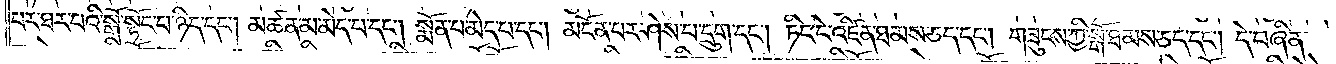པར་ཐར་པའི་སྒོ་སྟོང་པ་ཉིད་དང༌། མཚན་མ་མེད་པ་དང༌། སྨོན་པ་མེད་པ་དང༌། མངོན་པར་ཤེས་པ་དྲུག་དང༌། ཏིང་ངེ་འཛིན་ཐམས་ཅད་དང༌། གཟུངས་ཀྱི་སྒོ་ཐམས་ཅད་དང༌། དེ་བཞིན་
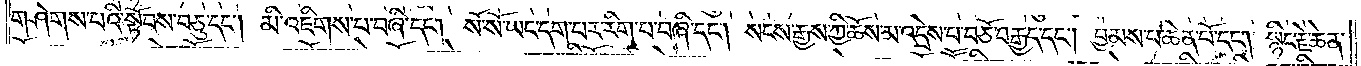གཤེགས་པའི་སྟོབས་བཅུ་དང༌། མི་འཇིགས་པ་བཞི་དང༌། སོ་སོ་ཡང་དག་པར་རིག་པ་བཞི་དང༌། སངས་རྒྱས་ཀྱི་ཆོས་མ་འདྲེས་པ་བཅོ་བརྒྱད་དང༌། བྱམས་པ་ཆེན་པོ་དང༌། སྙིང་རྗེ་ཆེན་
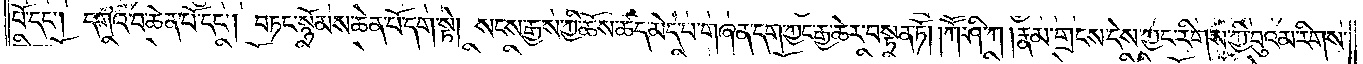པོ་དང༌། དགའ་བ་ཆེན་པོ་དང༌། བཏང་སྙོམས་ཆེན་པོ་དག་སྟེ། སངས་རྒྱས་ཀྱི་ཆོས་ཚད་མེད་པ་གཞན་དག་ཀྱང་རྒྱ་ཆེར་བསྟན་ཏོ། །ཀཽ་ཤི་ཀ །རྣམ་གྲངས་དེས་ཀྱང་རིགས་ཀྱི་བུའམ་རིགས་
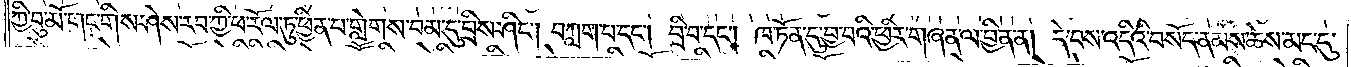ཀྱི་བུ་མོ་གང་གིས་ཤེས་རབ་ཀྱི་ཕ་རོལ་ཏུ་ཕྱིན་པ་གླེགས་བམ་དུ་བྲིས་ཤིང༌། བཀླག་པ་དང༌། བྲི་བ་དང༌། ཁ་ཏོན་དུ་བྱ་བའི་ཕྱིར་གཞན་ལ་བྱིན་ན། དེ་བས་འདིའི་བསོད་ནམས་ཆེས་མང་དུ་
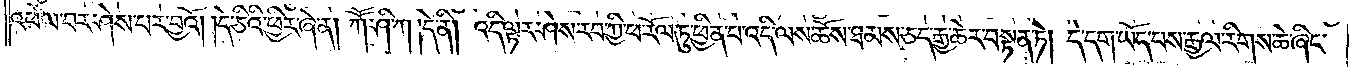འཕེལ་བར་ཤེས་པར་བྱའོ། །དེ་ཅིའི་ཕྱིར་ཞེ་ན། ཀཽ་ཤ་ཀ །དེ་ནི། འདི་ལྟར་ཤེས་རབ་ཀྱི་ཕ་རོལ་ཏུ་ཕྱིན་པ་འདི་ལས་ཆོས་ཐམས་ཅད་རྒྱ་ཆེར་བསྟན་ཏེ། དེ་དག་ཡོད་པས་རྒྱལ་རིགས་ཆེ་ཞིང་
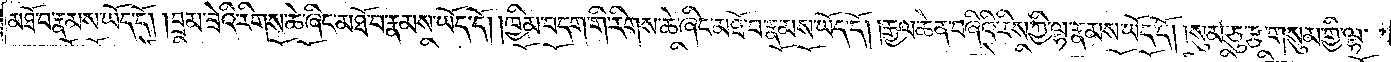མཐོ་བ་རྣམས་ཡོད་དོ། །བྲམ་ཟེའི་རིགས་ཆེ་ཞིང་མཐོ་བ་རྣམས་ཡོད་དོ། །ཁྱིམ་བདག་གི་རིགས་ཆེ་ཞིང་མཐོ་བ་རྣམས་ཡོད་དོ། །རྒྱལ་ཆེན་བཞིའི་རིས་ཀྱི་ལྷ་རྣམས་ཡོད་དོ། །སུམ་ཅུ་རྩ་གསུམ་གྱི་ལྷ་
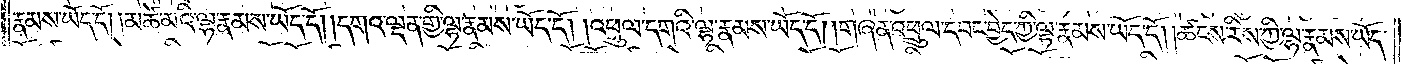རྣམས་ཡོད་དོ། །མཚེ་མའི་ལྷ་རྣམས་ཡོད་དོ། །དགའ་ལྡན་གྱི་ལྷ་རྣམས་ཡོད་དོ། །འཕྲུལ་དགའི་ལྷ་རྣམས་ཡོད་དོ། །གཞན་འཕྲུལ་དབང་བྱེད་ཀྱི་ལྷ་རྣམས་ཡོད་དོ། །ཚངས་རིས་ཀྱི་ལྷ་རྣམས་ཡོད་
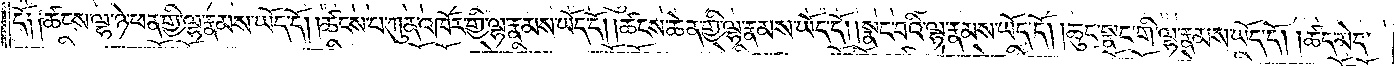དོ༑ ༑ཚངས་ལྷ་ཉེ་ཕན་གྱི་ལྷ་རྣམས་ཡོད་དོ། །ཚངས་པ་ཀུན་འཁོར་གྱི་ལྷ་རྣམས་ཡོད་དོ། །ཚངས་ཆེན་གྱི་ལྷ་རྣམས་ཡོད་དོ། །སྣང་བའི་ལྷ་རྣམས་ཡོད་དོ། །ཆུང་སྣང་གི་ལྷ་རྣམས་ཡོད་དོ། །ཚད་མེད་
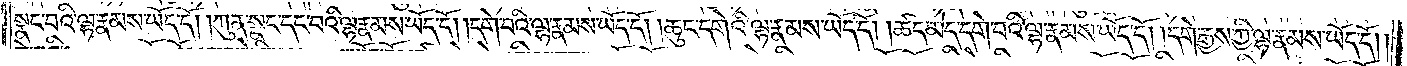སྣང་བའི་ལྷ་རྣམས་ཡོད་དོ། །ཀུན་སྣང་དང་བའི་ལྷ་རྣམས་ཡོད་དོ། །དགེ་བའི་ལྷ་རྣམས་ཡོད་དོ། །ཆུང་དགེའི་ལྷ་རྣམས་ཡོད་དོ། །ཚད་མེད་དགེ་བའི་ལྷ་རྣམས་ཡོད་དོ། །དགེ་རྒྱས་ཀྱི་ལྷ་རྣམས་ཡོད་དོ། །
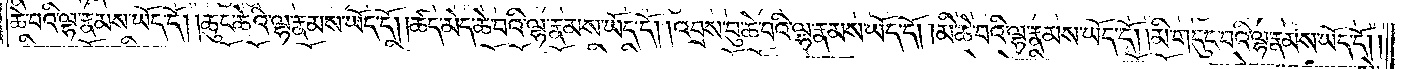ཆེ་བའི་ལྷ་རྣམས་ཡོད་དོ། །ཆུང་ཆེའི་ལྷ་རྣམས་ཡོད་དོ། །ཚད་མེད་ཆེ་བའི་ལྷ་རྣམས་ཡོད་དོ། །འབྲས་བུ་ཆེ་བའི་ལྷ་རྣམས་ཡོད་དོ། །མི་ཆེ་བའི་ལྷ་རྣམས་ཡོད་དོ། །མི་གདུང་བའི་ལྷ་རྣམས་ཡོད་དོ། །
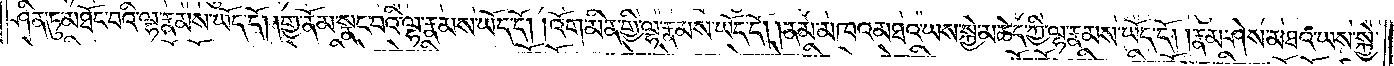ཤིན་ཏུ་མཐོང་བའི་ལྷ་རྣམས་ཡོད་དོ། །གྱ་ནོམ་སྣང་བའི་ལྷ་རྣམས་ཡོད་དོ། །འོག་མིན་གྱི་ལྷ་རྣམས་ཡོད་དོ། །ནམ་མཁའ་མཐའ་ཡས་སྐྱེ་མཆེད་ཀྱི་ལྷ་རྣམས་ཡོད་དོ། །རྣམ་ཤེས་མཐའ་ཡས་སྐྱེ་
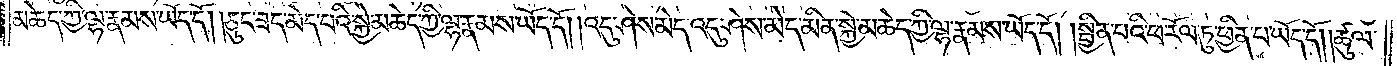མཆེད་ཀྱི་ལྷ་རྣམས་ཡོད་དོ། །ཅུང་ཟད་མེད་པའི་སྐྱེ་མཆེད་ཀྱི་ལྷ་རྣམས་ཡོད་དོ། །འདུ་ཤེས་མེད་འདུ་ཤེས་མེད་མིན་སྐྱེ་མཆེད་ཀྱི་ལྷ་རྣམས་ཡོད་དོ། །སྦྱིན་པའི་ཕ་རོལ་ཏུ་ཕྱིན་པ་ཡོད་དོ། །ཚུལ་
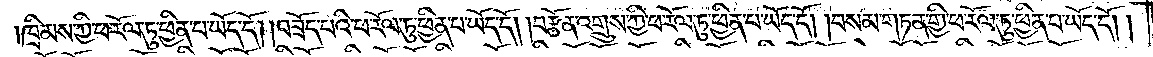ཁྲིམས་ཀྱི་ཕ་རོལ་ཏུ་ཕྱིན་པ་ཡོད་དོ། །བཟོད་པའི་ཕ་རོལ་ཏུ་ཕྱིན་པ་ཡོད་དོ། །བརྩོན་འགྲུས་ཀྱི་ཕ་རོལ་ཏུ་ཕྱིན་པ་ཡོད་དོ། །བསམ་གཏན་གྱི་ཕ་རོལ་ཏུ་ཕྱིན་པ་ཡོད་དོ། །
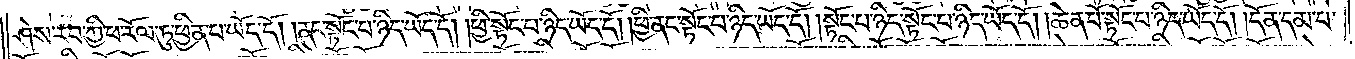ཤེས་རབ་ཀྱི་ཕ་རོལ་ཏུ་ཕྱིན་པ་ཡོད་དོ། །ནང་སྟོང་པ་ཉིད་ཡོད་དོ། །ཕྱི་སྟོང་པ་ཉིད་ཡོད་དོ། །ཕྱི་ནང་སྟོང་པ་ཉིད་ཡོད་དོ། །སྟོང་པ་ཉིད་སྟོང་པ་ཉིད་ཡོད་དོ། །ཆེན་པོ་སྟོང་པ་ཉིད་ཡོད་དོ། །དོན་དམ་པ་
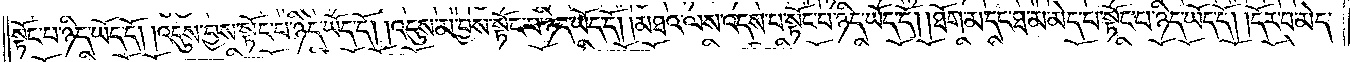སྟོང་པ་ཉིད་ཡོད་དོ། །འདུས་བྱས་སྟོང་པ་ཉིད་ཡོད་དོ། །འདུས་མ་བྱས་སྟོང་པ་ཉིད་ཡོད་དོ། །མཐའ་ལས་འདས་པ་སྟོང་པ་ཉིད་ཡོད་དོ། །ཐོག་མ་དང་ཐ་མ་མེད་པ་སྟོང་པ་ཉིད་ཡོད་དོ། །དོར་བ་མེད་
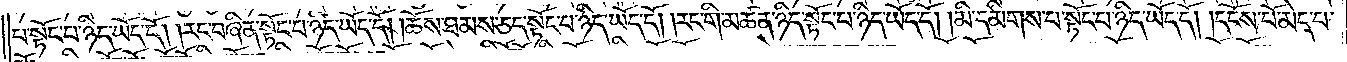པ་སྟོང་པ་ཉིད་ཡོད་དོ། །རང་བཞིན་སྟོང་པ་ཉིད་ཡོད་དོ། །ཆོས་ཐམས་ཅད་སྟོང་པ་ཉིད་ཡོད་དོ། །རང་གི་མཚན་ཉིད་སྟོང་པ་ཉིད་ཡོད་དོ། །མི་དམིགས་པ་སྟོང་པ་ཉིད་ཡོད་དོ། །དངོས་པོ་མེད་པ་
